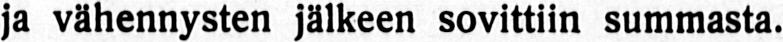ja vähennysten jälkeen sovittiin summasta.
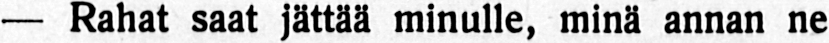— Rahat saat jättää minulle, minä annan ne
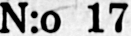N:o 17
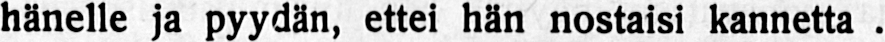hänelle ja pyydän, ettei hän nostaisi kannetta .
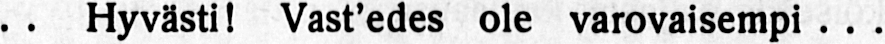.. Hyvästi! Vast'edes ole varovaisempi . . .
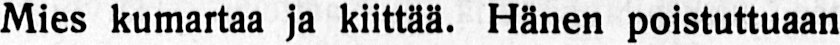Mies kumartaa ja kiittää, Hänen poistuttuaan
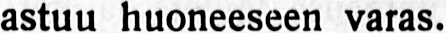astuu huoneeseen varas.
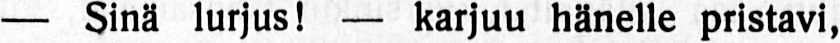— Sinä lurjus! — karjuu hänelle pristavi,
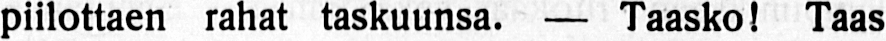piilottaen rahat taskuunsa. — Taasko! Taas
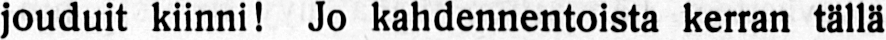jouduit kiinni! Jo kahdennentoista kerran tällä
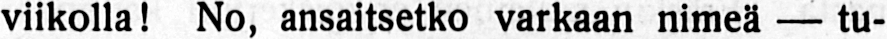viikolla! No, ansaitsetko varkaan nimeä — tu-
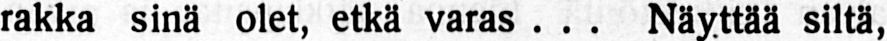rakka sinä olet, etkä varas . . . Näyttää siltä,
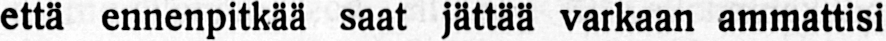että ennenpitkää saat jättää varkaan ammattisi
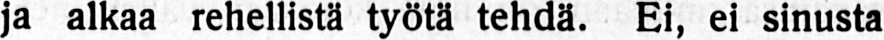ja alkaa rehellistä työtä tehdä. Ei, ei sinusta
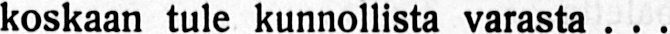koskaan tule kunnollista varasta . . .
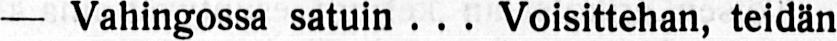— Vahingossa satuin . . . Voisittehan, teidän
